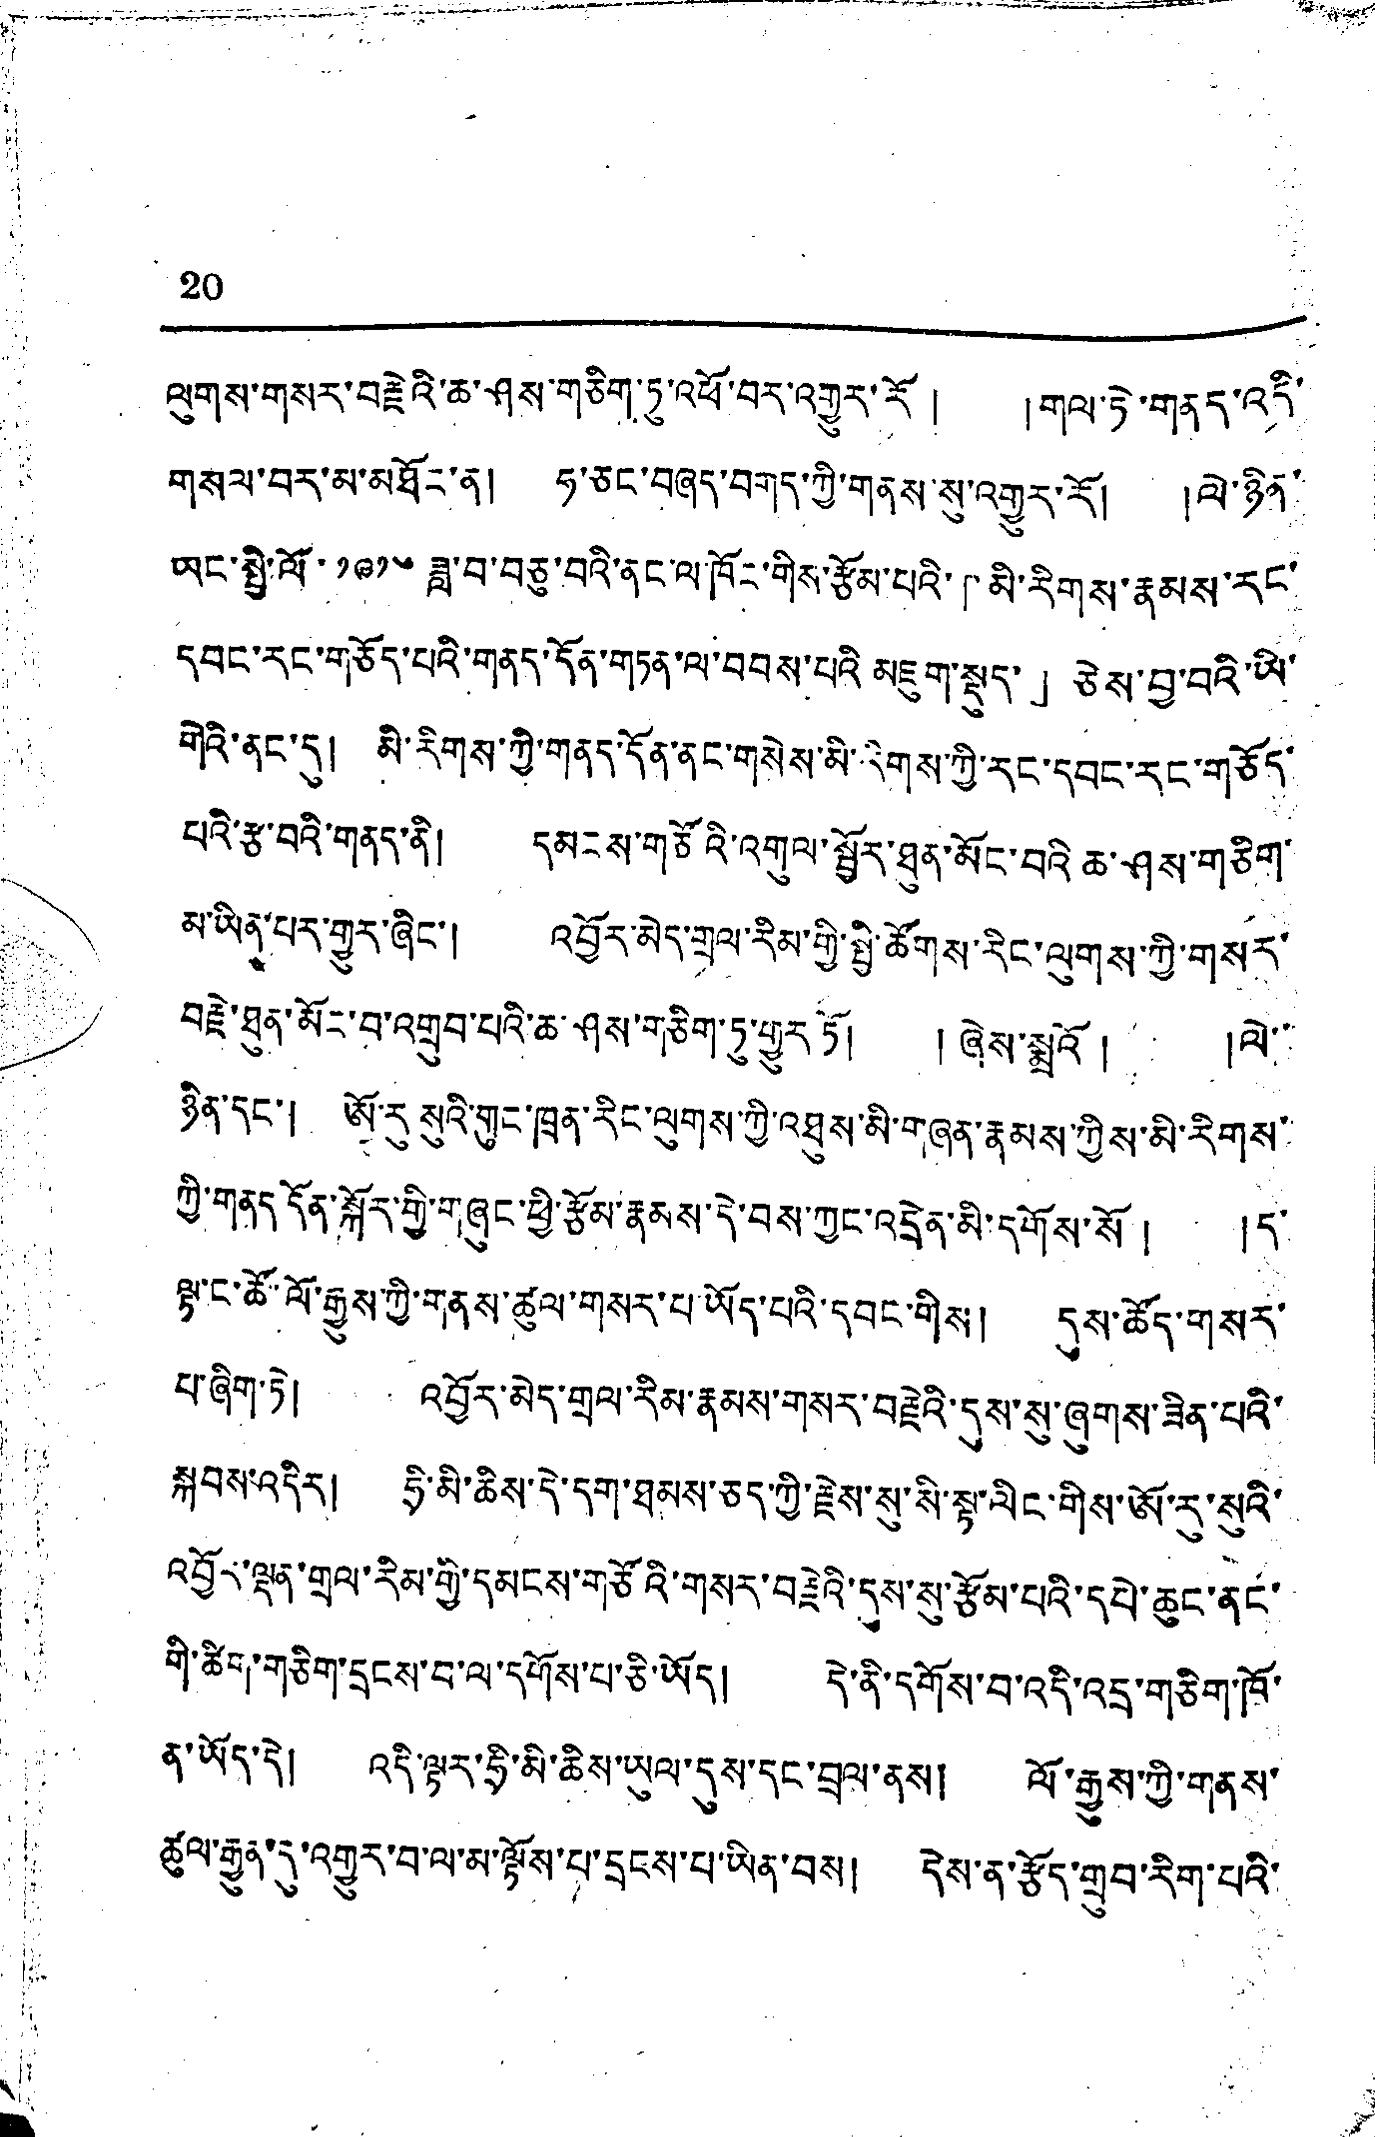20
ལུགས་གསར་བརྗེའི་ཆ་ཤས་གཅིག་ཏུ་འཕོ་བར་འགྱུར་རོ ། །གལ་རེ་གནད་འདི་
གསལ་བར་མ་མཐོང་ན། ཧ་ཅང་བཞད་བགད་ཀྱི་གནས་སུ་འགྱུར་རོ། །ལེ་ཉིན་
ཡང་སྤྱི་ལོ་ ༡༩༡༦ ཟླ་བ་བཅུ་བའི་ནང་ལ་ཁོང་གིས་རྩོམ་པའི་「མི་རིགས་རྣམས་རང་
དབང་རང་གཅོད་པའི་གནད་དོན་གཏན་ལ་བབས་པའི་མཇུག་སྡུད་」ཅེས་བྱ་བའི་ཡི་
གེའི་ནང་དུ། མི་རིགས་ཀྱི་གནད་དོན་ནང་གསེས་མི་རིགས་ཀྱི་རང་དབང་རང་གཅོད་
པའི་རྩ་བའི་གནད་ནི། དམངས་གཙོའི་འགུལ་སྦྱོར་ཐུན་མོང་བའི་ཆ་ཤས་གཅིག་
མ་ཡིན་པར་གྱུར་ཞིང་། འབྱོར་མེད་གྲལ་རིམ་གྱི་སྤྱི་ཚོགས་རིང་ལུགས་ཀྱི་གསར་
བརྗེ་ཐུན་མིང་བ་འགྲུབ་པའི་ཆ་ཤས་གཅིག་ཏུ་གྱུར་ཏོ། ། ཞེས་སྨྲའོ ། །ལེ་་
ཉིན་དང་། ཨོ་རུ་སུའི་གུང་ཁྲན་རིང་ལུགས་ཀྱི་འཐུས་མི་གཞན་རྣམས་ཀྱིས་མི་རིགས་
ཀྱི་གན་དོན་སྐོར་གྱི་གཞུང་ཕྱི་རྩོམ་རྣམས་དེ་བས་ཀྱང་འདྲེན་མི་དགོས་སོ ། །ད་
ལྟ་ང་ཚོ་ལོ་རྒྱུས་ཀྱི་གནས་ཚུལ་གསར་པ་ཡོད་པའི་དབང་གིས། དུས་ཚོད་གསར་
པ་ཞིག་ཏེ། འབྱོར་མེད་གྲལ་རིམ་རྣམས་གསར་བརྗེའི་དུས་སུ་ཞུགས་ཟིན་པའི་
སྐབས་འདིར། ཧྲི་མི་ཆིས་དེ་དག་ཐམས་ཅད་ཀྱི་རྗེས་སུ་སི་སྟ་ལིང་གིས་ཨོ་རུ་སུའི་
འབྱོར་ལྡན་གྲལ་རིམ་གྱི་དམངས་གཙོའི་གསར་བརྗེའི་དུས་སུ་རྩོམ་པའི་དཔེ་ཆུང་ནང་
གི་ཚིག་གཅིག་དྲངས་བ་ལ་དགོས་པ་ཅི་ཡོད། དེ་ནི་དགོས་བ་འདི་འདྲ་གཅིག་ཁོ་
ན་ཡོད་དེ། འདི་ལྟར་ཧྲི་མི་ཆིས་ཡུལ་དུས་དང་བྲལ་ནས། ལོ་རྒྱུས་ཀྱི་གནས་
ཚུལ་རྒྱུན་དུ་འགྱུར་བ་ལ་མ་ལྟོས་པ་དྲངས་པ་ཡིན་བས། དེས་ན་རྩོད་གྲུབ་རིག་པའི་
